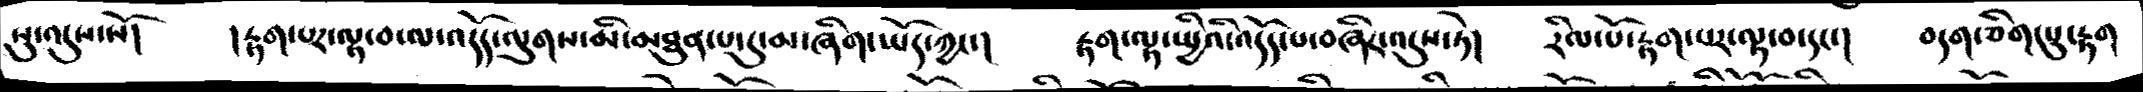སུ་འདུས་སོ།   །རྟག་པར་ལྟ་བ་ལ་འདོད་ལུགས་མི་མཐུན་པ་དུ་མ་ཞིག་ཡོད་ཀྱང་།   རྟག་ལྟ་སྤྱིའི་འདོད་པ་བཞིར་འདུས་ཏེ།   རིལ་པོ་རྟག་པར་ལྟ་བ་དང་།   བདག་ཅིག་པུ་རྟག
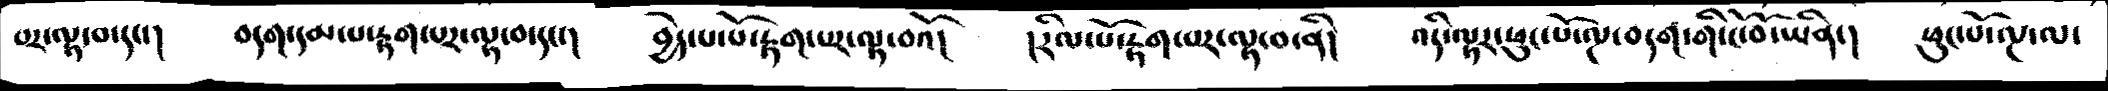པར་ལྟ་བ་དང་།   བདག་དམ་པ་རྟག་པར་ལྟ་བ་དང་།   བྱེད་པ་པོ་རྟག་པར་ལྟ་བའོ།   །རིལ་པོ་རྟག་པར་ལྟ་བ་ནི།   འདི་ལྟར་ཕུང་པོ་ལྔ་བདག་གི་ངོ་བོ་ཡིན་།   ཕུང་པོ་ལྔ་ལ་
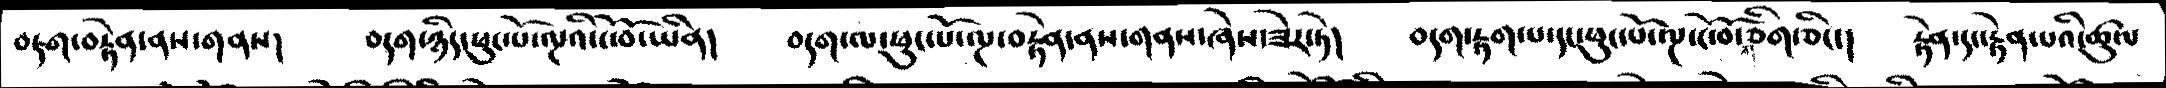བརྟག་བརྟེན་ནས་གནས།   བདག་ཉིད་ཕུང་པོ་ལྔའི་ངོ་བོ་ཡིན།  བདག་ལ་ཕུང་པོ་ལྔ་བརྟེན་ནས་གནས་ཞེས་ཟེར་ཏེ།   བདག་རྟག་པ་དང་ཕུང་པོ་ལྔ་ངོ་བོ་གཅིག་ཅིང་།   རྟེན་དང་རྟེན་པའི་ཚུལ
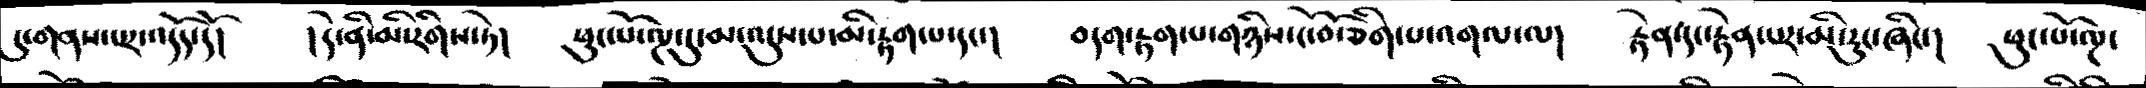དུ་གནས་པར་འདོད་དོ།   །དེ་ནི་མི་རིགས་ཏེ།   ཕུང་པོ་ལྔ་དུ་མ་འདུས་པ་མི་རྟག་པ་དང་།   བདག་རྟག་པ་གཉིས་ངོ་བོ་ཅིག་པ་འགལ་ལ།   རྟེན་དང་རྟེན་པར་མི་རུང་ཞིང་།   ཕུང་པོ་ལྔ་
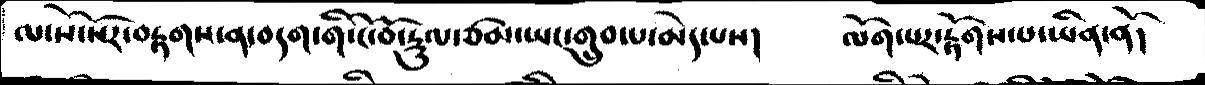ལ་སོ་སོར་བརྟགས་ན་བདག་གི་ངོ་བོ་རྡུལ་ཙམ་ཡང་གྲུབ་པ་མེད་པས།   ལོག་པར་རྟོགས་པ་ཡིན་ནོ།
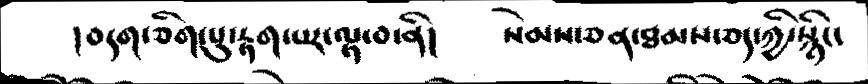།བདག་ཅིག་པུ་རྟག་པར་ལྟ་བ་ནི།   སེམས་ཅན་ཐམས་ཅད་ཀྱི་སྙིང་
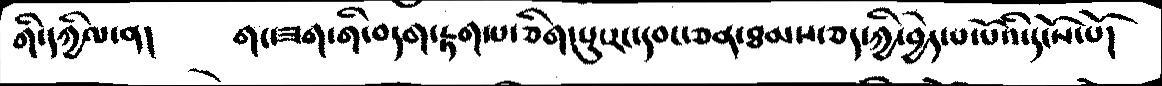གི་དཀྱིལ་ན།    གང་ཟག་གི་བདག་རྟག་པ་ཅིག་པུ་རང་དབང་ཅན་ཐམས་ཅད་ཀྱི་བྱེད་པ་པོའི་དངོས་པོ།
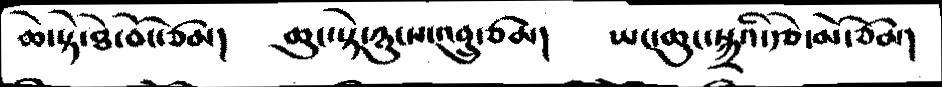ཆེ་སྟེ་ཐེ་བོ་ཙམ།   ཆུང་སྟེ་ཉུངས་འབྲུ་ཙམ།   ཡང་ཆུང་སྐྲའི་རྩེ་མོ་ཙམ།
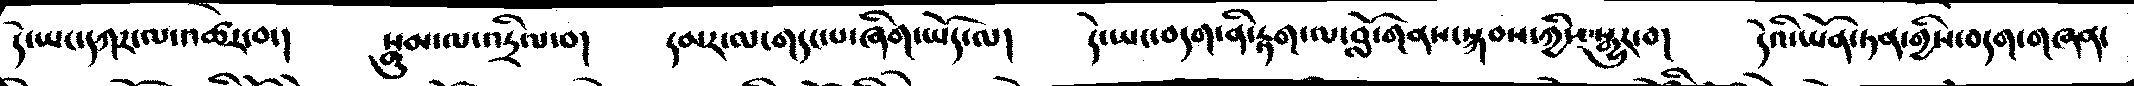དེ་ཡང་དཀར་ལ་འཚེར་བ་།   སྣུམ་ལ་འདྲིལ་བ།   དམར་ལ་གདང་པ་ཞིག་ཡོད་ལ།   དེ་ཡང་བདག་ནི་རྟག་ལ་བློ་གནས་སྐབས་ཀྱིས་སྒྱུར་བ།   དེའི་ཡོན་ཏན་གྱིས་བདག་གཞན་
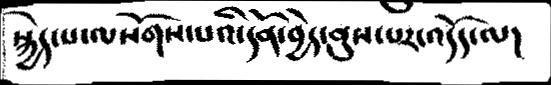སྐྱེད་པ་ལསོགས་པའི་དོན་བྱེད་ནུས་པར་འདོད་ལ།
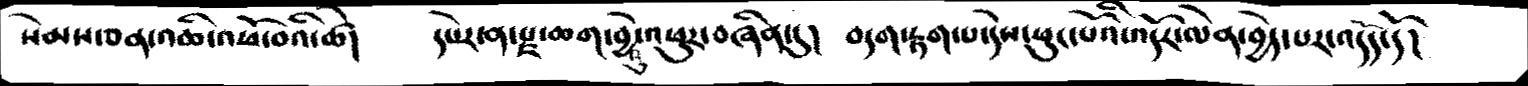སེམས་ཅན་ཆི་འཕོ་བའི་ཚེ།   དཔེར་ན་རྫ་ཆག་བྱེའུ་འཕུར་བཞིན་དུ།   བདག་རྟག་པ་དེས་ཕུང་པོའི་འདོར་ལེན་བྱེད་པར་འདོད་དོ།
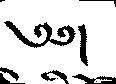༄༅།
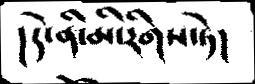།དེ་ནི་མི་རིགས་ཏེ།
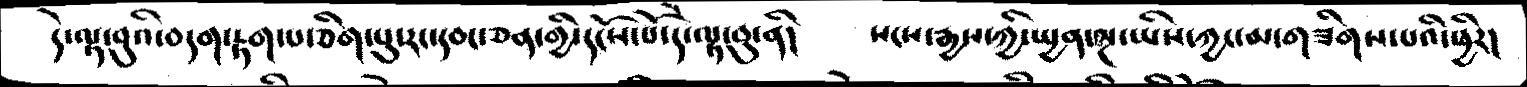དེ་ལྟ་བུའི་བདག་རྟག་པ་ཅིག་པུ་རང་དབང་ཅན་གྱི་དངོས་པོ་དེ་ལྟ་བུ་ནི།   སངས་རྒྱས་ཀྱི་སྤྱན་ལྔ་ཡིས་ཀྱང་མ་གཟིགས་པའི་ཕྱིར།
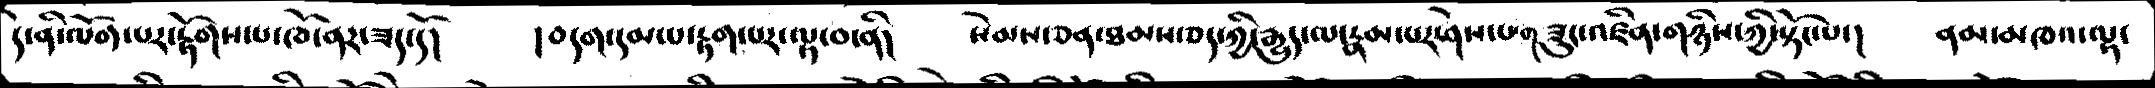དེ་ནི་ལོག་པར་རྟོགས་པ་ཁོ་ནར་ཟད་དོ།   །བདག་དམ་པ་རྟག་པར་ལྟ་བ་ནི།   སེམས་ཅན་ཐམས་ཅད་ཀྱི་རྒྱུད་ལ་རྣམ་པར་ཤེས་པ་གཟུང་འཛིན་གཉིས་ཀྱི་སྟོང་པ་།   ནམ་མཁའ་ལྟ་
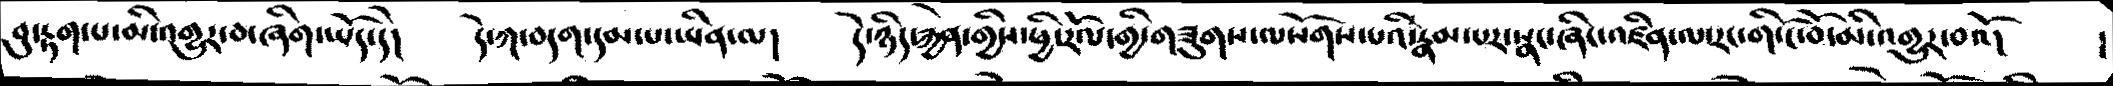བུ་རྟག་པ་མི་འགུར་བ་ཞིག་ཡོད་དེ།   དེ་ཀ་བདག་དམ་པ་ཡིན་ལ།  དེ་ཉིད་རྐྱེན་གྱིས་ཕྱིར་རོལ་གྱི་གཟུགས་ལསོགས་པའི་རྣམ་པར་སྣང་ཞིང་འཛིན་ལ་རང་གི་ངོ་བོ་མི་འགྱུར་བའོ།   །
